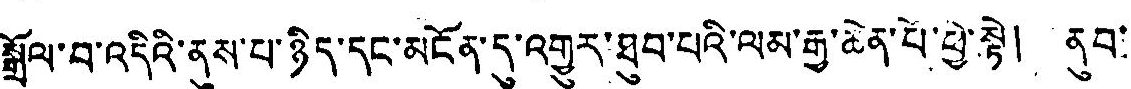སྒྲོལ་བ་འདིའི་ནུས་པ་ཉིད་དང་མངོན་དུ་འགྱུར་ཐུབ་པའི་ལམ་རྒྱ་ཆེན་པོ་ཕྱེ་སྟེ། ནུབ་
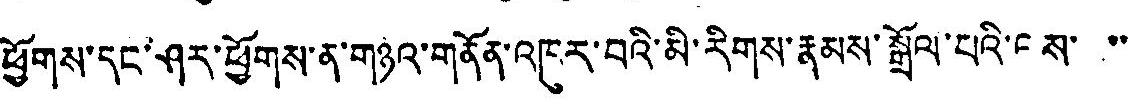ཕྱོགས་དང་ཤར་ཕྱོས་ན་གཉའ་གནོན་འཁུར་བའི་མི་རིགས་རྣམས་སྒྲོལ་པའི་ལས་་་་
